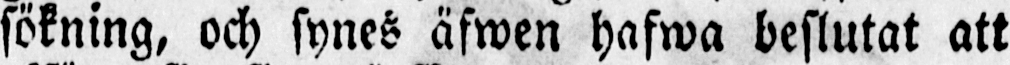sökning, och synes äfwen hafwa beslutat att
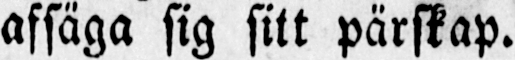afsäga sig sitt pärskap.
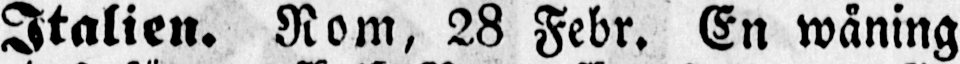Italien. Rom, 28 Febr. En wåning
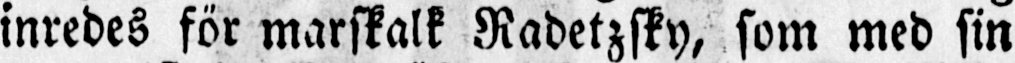inredes för marskalk Radetzsky, som med sin
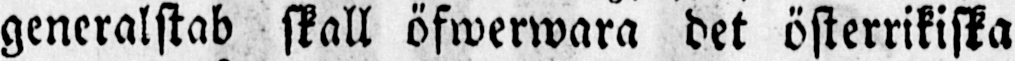generalstab skall öfwerwara det österrikiska
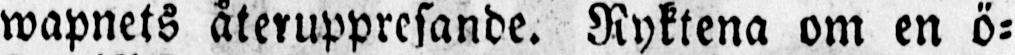wapnets återuppresande. Ryktena om en ö-
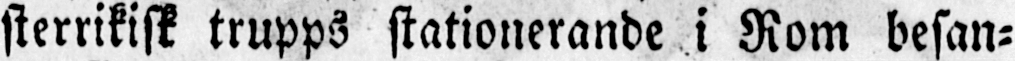sterrikisk trupps stationerande i Rom besan-
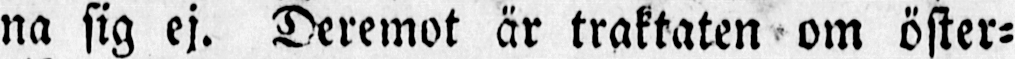na sig ej. Deremot är traktaten om öster-
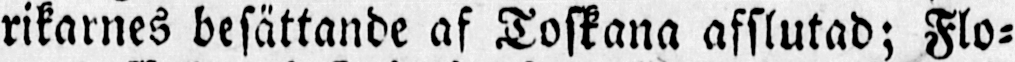rikarnes besättande af Toskana afslutad; Flo-
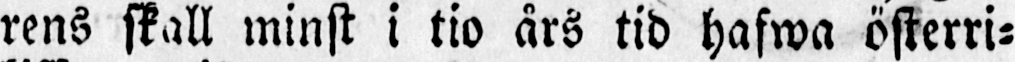rens skall minst i tio års tid hafwa österri-
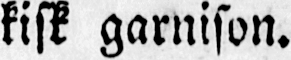kisk garnison.
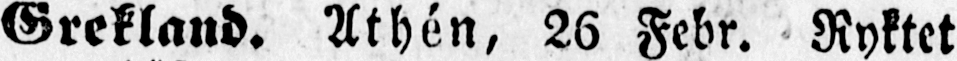Grekland. Athén, 26 Febr. Ryktet
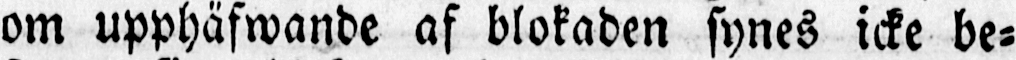om upphäfwande af blokaden synes icke be-
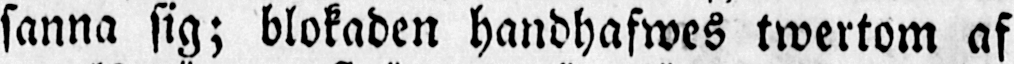sanna sig; blokaden handhafwes twertom af
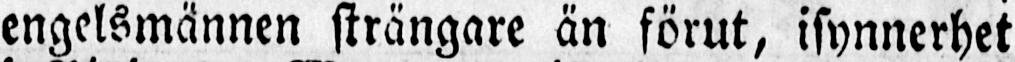engelsmännen strängare än förut, isynnerhet
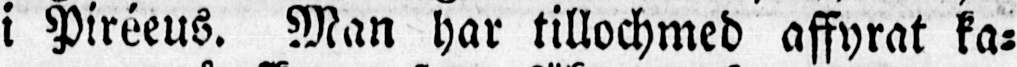i Piréeus. Man har tillochmed affyrat ka-
